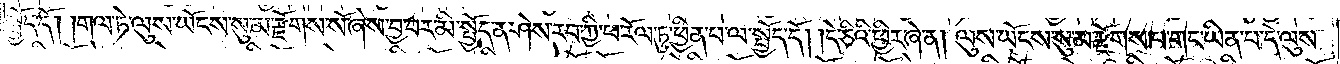སྤྱོད་དོ། །གལ་ཏེ་ལུས་ཡོངས་སུ་མ་རྫོགས་སོ་ཞེས་བྱ་བར་མི་སྤྱོད་ན་ཤེས་རབ་ཀྱི་ཕ་རོལ་ཏུ་ཕྱིན་པ་ལ་སྤྱོད་དོ། །དེ་ཅིའི་ཕྱིར་ཞེ་ན། ལུས་ཡོངས་སུ་མ་རྫོགས་པ་གང་ཡིན་པ་དེ་ལུས་
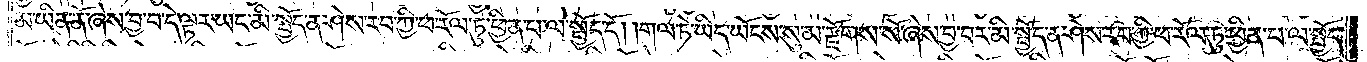མ་ཡིན་ནོ་ཞེས་བྱ་བ་དེ་ལྟར་ཡང་མི་སྤྱོད་ན་ཤེས་རབ་ཀྱི་ཕ་རོལ་ཏུ་ཕྱིན་པ་ལ་སྤྱོད་དོ། །གལ་ཏེ་ཡིད་ཡོངས་སུ་མ་རྫོགས་སོ་ཞེས་བྱ་བར་མི་སྤྱོད་ན་ཤེས་རབ་ཀྱི་ཕ་རོལ་ཏུ་ཕྱིན་པ་ལ་སྤྱོད་
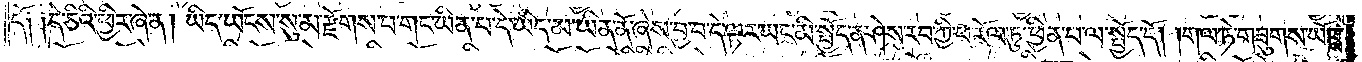དོ༑ ༑དེ་ཅིའི་ཕྱིར་ཞེ་ན། ཡིད་ཡོངས་སུ་མ་རྫོགས་པ་གང་ཡིན་པ་དེ་ཡིད་མ་ཡིན་ནོ་ཞེས་བྱ་བ་དེ་ལྟར་ཡང་མི་སྤྱོད་ན་ཤེས་རབ་ཀྱི་ཕ་རོལ་ཏུ་ཕྱིན་པ་ལ་སྤྱོད་དོ། །གལ་ཏེ་གཟུགས་ཡོངས་
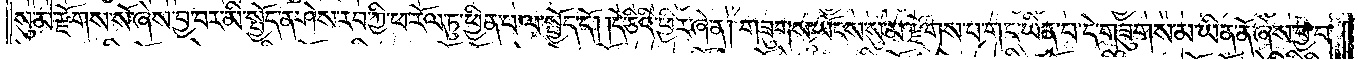སུ་མ་རྫོགས་སོ་ཞེས་བྱ་བར་མི་སྤྱོད་ན་ཤེས་རབ་ཀྱི་ཕ་རོལ་ཏུ་ཕྱིན་པ་ལ་སྤྱོད་དོ། །དེ་ཅིའི་ཕྱིར་ཞེ་ན། གཟུགས་ཡོངས་སུ་མ་རྫོགས་པ་གང་ཡིན་པ་དེ་གཟུགས་མ་ཡིན་ནོ་ཞེས་བྱ་བ་
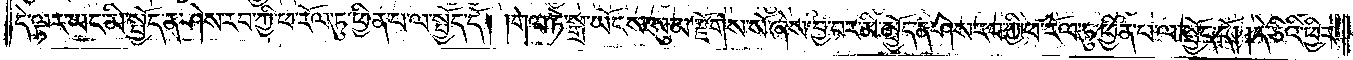དེ་ལྟར་ཡང་མི་སྤྱོད་ན་ཤེས་རབ་ཀྱི་ཕ་རོལ་ཏུ་ཕྱིན་པ་ལ་སྤྱོད་དོ། །གལ་ཏེ་སྒྲ་ཡོངས་སུ་མ་རྫོགས་སོ་ཞེས་བྱ་བར་མི་སྤྱོད་ན་ཤེས་རབ་ཀྱི་ཕ་རོལ་ཏུ་ཕྱིན་པ་ལ་སྤྱོད་དོ། །དེ་ཅིའི་ཕྱིར་
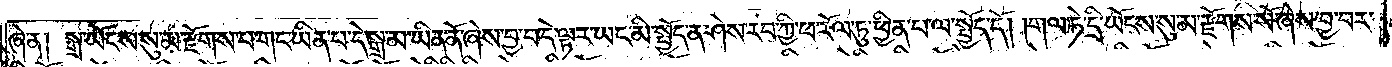ཞེ་ན། སྒྲ་ཡོངས་སུ་མ་རྫོགས་པ་གང་ཡིན་པ་དེ་སྒྲ་མ་ཡིན་ནོ་ཞེས་བྱ་བ་དེ་ལྟར་ཡང་མི་སྤྱོད་ན་ཤེས་རབ་ཀྱི་ཕ་རོལ་ཏུ་ཕྱིན་པ་ལ་སྤྱོད་དོ། །གལ་ཏེ་དྲི་ཡོངས་སུ་མ་རྫོགས་སོ་ཞེས་བྱ་བར་
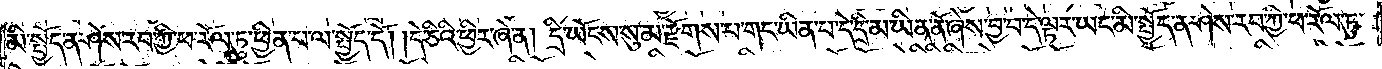མི་སྤྱོད་ན་ཤེས་རབ་ཀྱི་ཕ་རོལ་ཏུ་ཕྱིན་པ་ལ་སྤྱོད་དོ། །དེ་ཅིའི་ཕྱིར་ཞེ་ན། དྲི་ཡོངས་སུ་མ་རྫོགས་པ་གང་ཡིན་པ་དེ་དྲི་མ་ཡིན་ནོ་ཞེས་བྱ་བ་དེ་ལྟར་ཡང་མི་སྤྱོད་ན་ཤེས་རབ་ཀྱི་ཕ་རོལ་ཏུ་
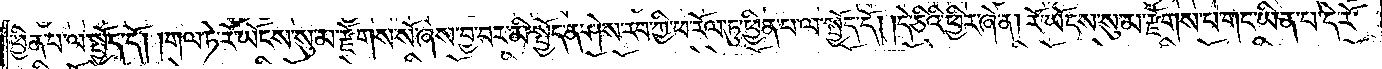ཕྱིན་པ་ལ་སྤྱོད་དོ། །གལ་ཏེ་རོ་ཡོངས་སུ་མ་རྫོགས་སོ་ཞེས་བྱ་བར་མི་སྤྱོད་ན་ཤེས་རབ་ཀྱི་ཕ་རོལ་ཏུ་ཕྱིན་པ་ལ་སྤྱོད་དོ། །དེ་ཅིའི་ཕྱིར་ཞེ་ན། རོ་ཡོངས་སུ་མ་རྫོགས་པ་གང་ཡིན་པ་དེ་རོ་
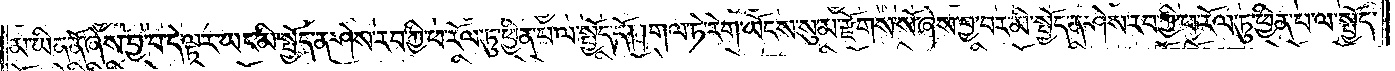མ་ཡིན་ནོ་ཞེས་བྱ་བ་དེ་ལྟར་ཡང་མི་སྤྱོད་ན་ཤེས་རབ་ཀྱི་ཕ་རོལ་ཏུ་ཕྱིན་པ་ལ་སྤྱོད་དོ། །གལ་ཏེ་རེག་ཡོངས་སུ་མ་རྫོགས་སོ་ཞེས་བྱ་བར་མི་སྤྱོད་ན་ཤེས་རབ་ཀྱི་ཕ་རོལ་ཏུ་ཕྱིན་པ་ལ་སྤྱོད་
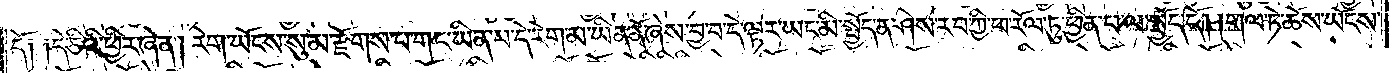དོ༑ ༑དེ་ཅིའི་ཕྱིར་ཞེ་ན། རེག་ཡོངས་སུ་མ་རྫོགས་པ་གང་ཡིན་པ་དེ་རེག་མ་ཡིན་ནོ་ཞེས་བྱ་བ་དེ་ལྟར་ཡང་མི་སྤྱོད་ན་ཤེས་རབ་ཀྱི་ཕ་རོལ་ཏུ་ཕྱིན་པ་ལ་སྤྱོད་དོ། །གལ་ཏེ་ཆོས་ཡོངས་
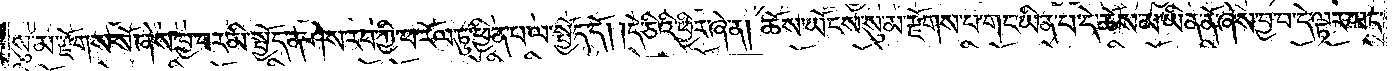སུ་མ་རྫོགས་སོ་ཞེས་བྱ་བར་མི་སྤྱོད་ན་ཤེས་རབ་ཀྱི་ཕ་རོལ་ཏུ་ཕྱིན་པ་ལ་སྤྱོད་དོ། །དེ་ཅིའི་ཕྱིར་ཞེ་ན། ཆོས་ཡོངས་སུ་མ་རྫོགས་པ་གང་ཡིན་པ་དེ་ཆོས་མ་ཡིན་ནོ་ཞེས་བྱ་བ་དེ་ལྟར་ཡང་
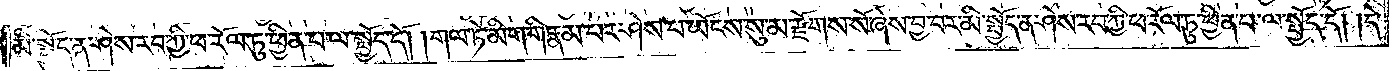མི་སྤྱོད་ན་ཤེས་རབ་ཀྱི་ཕ་རོལ་ཏུ་ཕྱིན་པ་ལ་སྤྱོད་དོ། །གལ་ཏེ་མིག་གི་རྣམ་པར་ཤེས་པ་ཡོངས་སུ་མ་རྫོགས་སོ་ཞེས་བྱ་བར་མི་སྤྱོད་ན་ཤེས་རབ་ཀྱི་ཕ་རོལ་ཏུ་ཕྱིན་པ་ལ་སྤྱོད་དོ། །དེ་
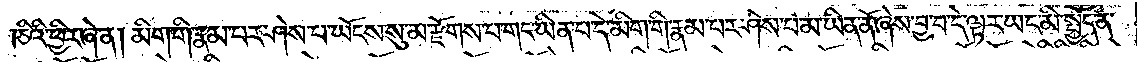ཅིའི་ཕྱིར་ཞེ་ན། མིག་གི་རྣམ་པར་ཤེས་པ་ཡོངས་སུ་མ་རྫོགས་པ་གང་ཡིན་པ་དེ་མིག་གི་རྣམ་པར་ཤེས་པ་མ་ཡིན་ནོ་ཞེས་བྱ་བ་དེ་ལྟར་ཡང་མི་སྤྱོད་ན་
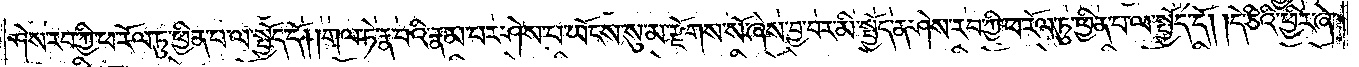ཤེས་རབ་ཀྱི་ཕ་རོལ་ཏུ་ཕྱིན་པ་ལ་སྤྱོད་དོ། །གལ་ཏེ་རྣ་བའི་རྣམ་པར་ཤེས་པ་ཡོངས་སུ་མ་རྫོགས་སོ་ཞེས་བྱ་བར་མི་སྤྱོད་ན་ཤེས་རབ་ཀྱི་ཕ་རོལ་ཏུ་ཕྱིན་པ་ལ་སྤྱོད་དོ། །དེ་ཅིའི་ཕྱིར་ཞེ་
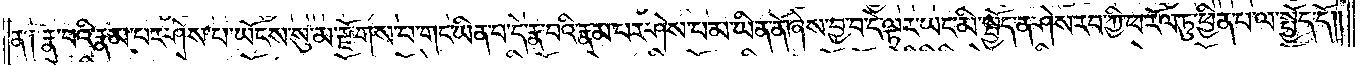ན༑ རྣ་བའི་རྣམ་པར་ཤེས་པ་ཡོངས་སུ་མ་རྫོགས་པ་གང་ཡིན་པ་དེ་རྣ་བའི་རྣམ་པར་ཤེས་པ་མ་ཡིན་ནོ་ཞེས་བྱ་བ་དེ་ལྟར་ཡང་མི་སྤྱོད་ན་ཤེས་རབ་ཀྱི་ཕ་རོལ་ཏུ་ཕྱིན་པ་ལ་སྤྱོད་དོ། །
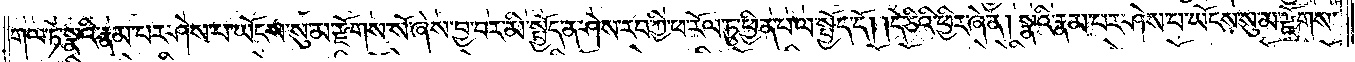གལ་ཏེ་སྣའི་རྣམ་པར་ཤེས་པ་ཡོངས་སུ་མ་རྫོགས་སོ་ཞེས་བྱ་བར་མི་སྤྱོད་ན་ཤེས་རབ་ཀྱི་ཕ་རོལ་ཏུ་ཕྱིན་པ་ལ་སྤྱོད་དོ། །དེ་ཅིའི་ཕྱིར་ཞེ་ན། སྣའི་རྣམ་པར་ཤེས་པ་ཡོངས་སུ་མ་རྫོགས་
